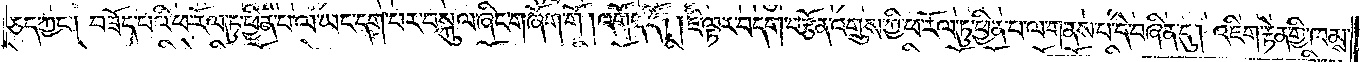ཅད་ཀྱང༌། བཟོད་པའི་ཕ་རོལ་ཏུ་ཕྱིན་པ་ལ་ཡང་དག་པར་བསྐུལ་ཞིང་གཞོག་གོ །འགོད་དོ། །ཇི་ལྟར་བདག་བརྩོན་འགྲུས་ཀྱི་ཕ་རོལ་ཏུ་ཕྱིན་པ་ལ་གནས་པ་དེ་བཞིན་དུ། འཇིག་རྟེན་གྱི་ཁམས་
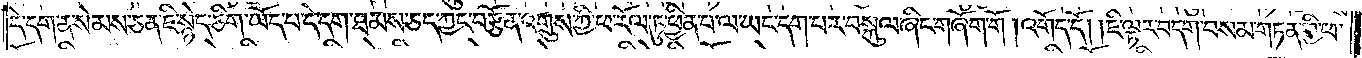དེ་དག་ན་སེམས་ཅན་ཇི་སྙེད་ཅིག་ཡོད་པ་དེ་དག་ཐམས་ཅད་ཀྱང་བརྩོན་འགྲུས་ཀྱི་ཕ་རོལ་ཏུ་ཕྱིན་པ་ལ་ཡང་དག་པར་བསྐུལ་ཞིང་གཞོག་གོ །འགོད་དོ། །ཇི་ལྟར་བདག་བསམ་གཏན་གྱི་ཕ་
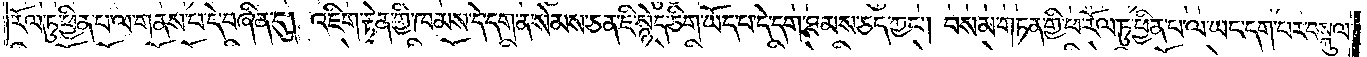རོལ་ཏུ་ཕྱིན་པ་ལ་གནས་པ་དེ་བཞིན་དུ། འཇིག་རྟེན་གྱི་ཁམས་དེ་དག་ན་སེམས་ཅན་ཇི་སྙེད་ཅིག་ཡོད་པ་དེ་དག་ཐམས་ཅད་ཀྱང༌། བསམ་གཏན་གྱི་ཕ་རོལ་ཏུ་ཕྱིན་པ་ལ་ཡང་དག་པར་བསྐུལ་
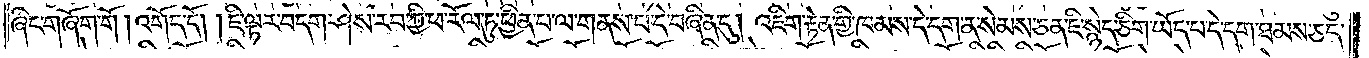ཞིང་གཞོག་གོ །འགོད་དོ། །ཇི་ལྟར་བདག་ཤེས་རབ་ཀྱི་ཕ་རོལ་ཏུ་ཕྱིན་པ་ལ་གནས་པ་དེ་བཞིན་དུ། འཇིག་རྟེན་གྱི་ཁམས་དེ་དག་ན་སེམས་ཅན་ཇི་སྙེད་ཅིག་ཡོད་པ་དེ་དག་ཐམས་ཅད་
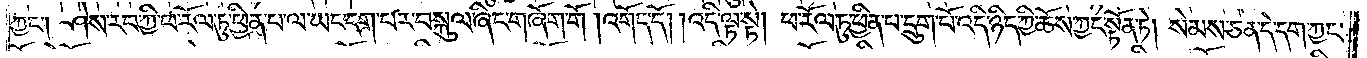ཀྱང༌། ཤེས་རབ་ཀྱི་ཕ་རོལ་ཏུ་ཕྱིན་པ་ལ་ཡང་དག་པར་བསྐུལ་ཞིང་གཞོག་གོ །འགོད་དོ། །འདི་ལྟ་སྟེ། ཕ་རོལ་ཏུ་ཕྱིན་པ་དྲུག་པོ་འདི་ཉིད་ཀྱི་ཆོས་ཀྱང་སྟོན་ཏེ། སེམས་ཅན་དེ་དག་ཀྱང་
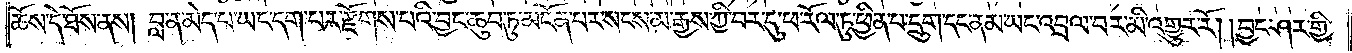ཆོས་དེ་ཐོས་ནས། བླ་ན་མེད་པ་ཡང་དག་པར་རྫོགས་པའི་བྱང་ཆུབ་ཏུ་མངོན་པར་སངས་མ་རྒྱས་ཀྱི་བར་དུ་ཕ་རོལ་ཏུ་ཕྱིན་པ་དྲུག་དང་ནམ་ཡང་འབྲལ་བར་མི་འགྱུར་རོ། །བྱང་ཤར་གྱི་
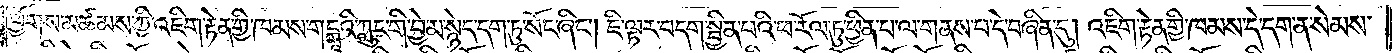ཕྱོགས་མཚམས་ཀྱི་འཇིག་རྟེན་གྱི་ཁམས་གངྒཱའི་ཀླུང་གི་བྱེ་མ་སྙེད་དག་ཏུ་སོང་ཞིང༌། ཇི་ལྟར་བདག་སྦྱིན་པའི་ཕ་རོལ་ཏུ་ཕྱིན་པ་ལ་གནས་པ་དེ་བཞིན་དུ། འཇིག་རྟེན་གྱི་ཁམས་དེ་དག་ན་སེམས་
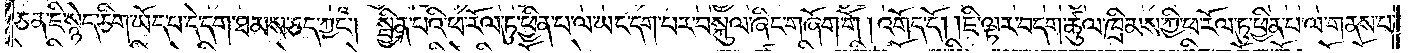ཅན་ཇི་སྙེད་ཅིག་ཡོད་པ་དེ་དག་ཐམས་ཅད་ཀྱང༌། སྦྱིན་པའི་ཕ་རོལ་ཏུ་ཕྱིན་པ་ལ་ཡང་དག་པར་བསྐུལ་ཞིང་གཞོག་གོ །འགོད་དོ། །ཇི་ལྟར་བདག་ཚུལ་ཁྲིམས་ཀྱི་ཕ་རོལ་ཏུ་ཕྱིན་པ་ལ་གནས་པ་
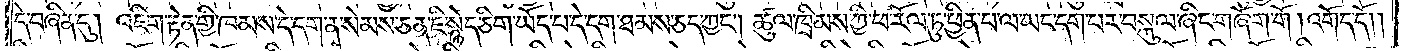དེ་བཞིན་དུ། འཇིག་རྟེན་གྱི་ཁམས་དེ་དག་ན་སེམས་ཅན་ཇི་སྙེད་ཅིག་ཡོད་པ་དེ་དག་ཐམས་ཅད་ཀྱང༌། ཚུལ་ཁྲིམས་ཀྱི་ཕ་རོལ་ཏུ་ཕྱིན་པ་ལ་ཡང་དག་པར་བསྐུལ་ཞིང་གཞོག་གོ །འགོད་དོ། །
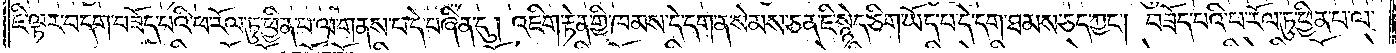ཇི་ལྟར་བདག་བཟོད་པའི་ཕ་རོལ་ཏུ་ཕྱིན་པ་ལ་གནས་པ་དེ་བཞིན་དུ། འཇིག་རྟེན་གྱི་ཁམས་དེ་དག་ན་སེམས་ཅན་ཇི་སྙེད་ཅིག་ཡོད་པ་དེ་དག་ཐམས་ཅད་ཀྱང༌། བཟོད་པའི་ཕ་རོལ་ཏུ་ཕྱིན་པ་ལ་
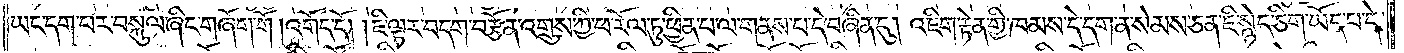ཡང་དག་པར་བསྐུལ་ཞིང་གཞོག་གོ །འགོད་དོ། །ཇི་ལྟར་བདག་བརྩོན་འགྲུས་ཀྱི་ཕ་རོལ་ཏུ་ཕྱིན་པ་ལ་གནས་པ་དེ་བཞིན་དུ། འཇིག་རྟེན་གྱི་ཁམས་དེ་དག་ན་སེམས་ཅན་ཇི་སྙེད་ཅིག་ཡོད་པ་དེ་
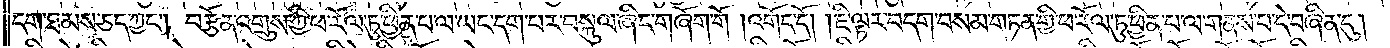དག་ཐམས་ཅད་ཀྱང༌། བརྩོན་འགྲུས་ཀྱི་ཕ་རོལ་ཏུ་ཕྱིན་པ་ལ་ཡང་དག་པར་བསྐུལ་ཞིང་གཞོག་གོ །འགོད་དོ༎ ཇི་ལྟར་བདག་བསམ་གཏན་གྱི་ཕ་རོལ་ཏུ་ཕྱིན་པ་ལ་གནས་པ་དེ་བཞིན་དུ།
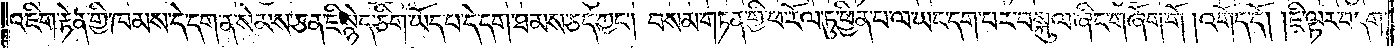འཇིག་རྟེན་གྱི་ཁམས་དེ་དག་ན་སེམས་ཅན་ཇི་སྙེད་ཅིག་ཡོད་པ་དེ་དག་ཐམས་ཅད་ཀྱང༌། བསམ་གཏན་གྱི་ཕ་རོལ་ཏུ་ཕྱིན་པ་ལ་ཡང་དག་པར་བསྐུལ་ཞིང་གཞོག་གོ །འགོད་དོ། །ཇི་ལྟར་བདག་
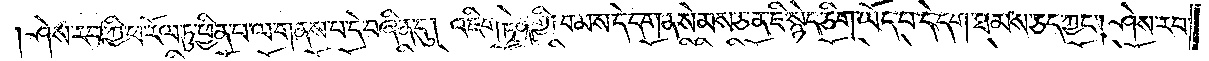ཤེས་རབ་ཀྱི་ཕ་རོལ་ཏུ་ཕྱིན་པ་ལ་གནས་པ་དེ་བཞིན་དུ། འཇིག་རྟེན་གྱི་ཁམས་དེ་དག་ན་སེམས་ཅན་ཇི་སྙེད་ཅིག་ཡོད་པ་དེ་དག་ཐམས་ཅད་ཀྱང༌། ཤེས་རབ་
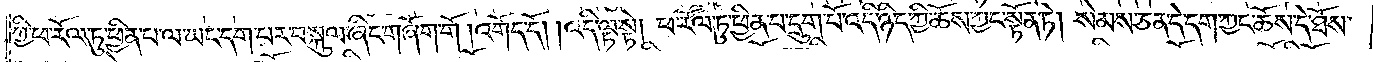ཀྱི་ཕ་རོལ་ཏུ་ཕྱིན་པ་ལ་ཡང་དག་པར་བསྐུལ་ཞིང་གཞོག་གོ །འགོད་དོ། །འདི་ལྟ་སྟེ། ཕ་རོལ་ཏུ་ཕྱིན་པ་དྲུག་པོ་འདི་ཉིད་ཀྱི་ཆོས་ཀྱང་སྟོན་ཏེ། སེམས་ཅན་དེ་དག་ཀྱང་ཆོས་དེ་ཐོས་
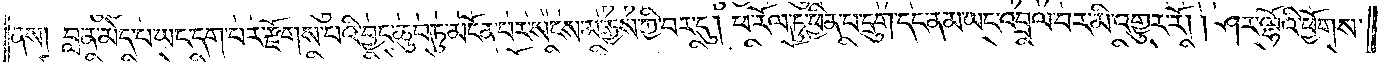ནས། བླ་ན་མེད་པ་ཡང་དག་པར་རྫོགས་པའི་བྱང་ཆུབ་ཏུ་མངོན་པར་སངས་མ་རྒྱས་ཀྱི་བར་དུ། ཕ་རོལ་ཏུ་ཕྱིན་པ་དྲུག་དང་ནམ་ཡང་འབྲལ་བར་མི་འགྱུར་རོ། །ཤར་ལྷོའི་ཕྱོགས་
